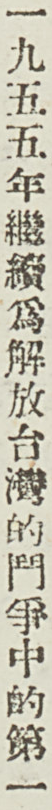一九五五年繼續爲解放台灣的鬥爭中的第一
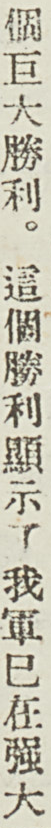個巨大勝利。這個勝利顯示了我軍已在強大
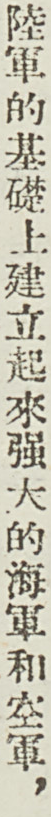陸軍的基礎上建立起來強大的海軍和空軍，
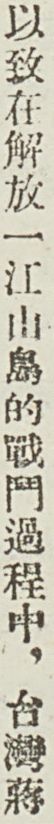以致在解放一江山島的戰鬥過程中，台灣蔣
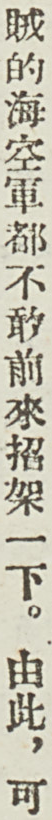賊的海空軍都不敢前來招架一下。由此，可
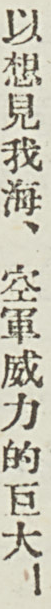以想見我海、空軍威力的巨大！
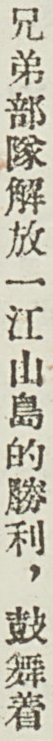兄弟部隊解放一江山島的勝利，鼓舞着
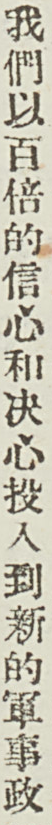我們以百倍的信心和決心投入到新的軍事政
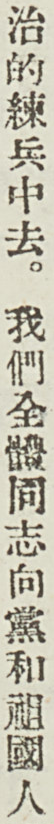治的練兵中去。我們全體同志向黨和祖國人
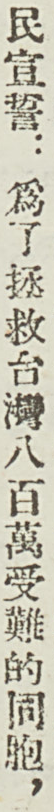民宣誓：爲了拯救台灣八百萬受難的同胞，
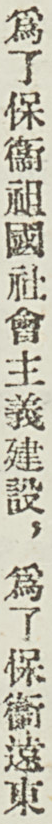爲了保衛祖國社會主義建設，爲了保衛遠東
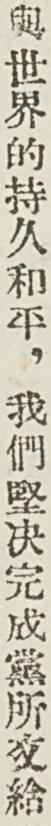與世界的持久和平，我們堅決完成黨所交給
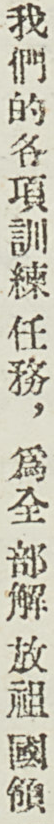我們的各項訓練任務，爲全部解放祖國領
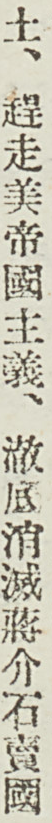土、趕走美帝國主義、徹底消滅蔣介石賣國
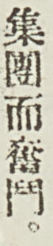集團而奮鬥。
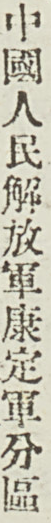中國人民解放軍康定軍分區
